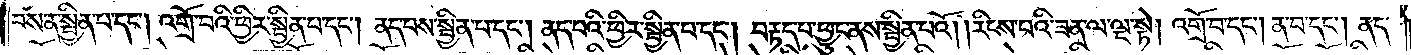བས་ན་སྦྱིན་པ་དང༌། འགྲོ་བའི་ཕྱིར་སྦྱིན་པ་དང༌། ནད་པས་སྦྱིན་པ་དང༌། ནད་པའི་ཕྱིར་སྦྱིན་པ་དང༌། བརྟད་པ་ཕྱུང་ནས་སྦྱིན་པའོ། །རིངས་བའི་ཟན་ལ་ལྔ་སྟེ། འགྲོ་བ་དང༌། ན་བ་དང༌། ནད་
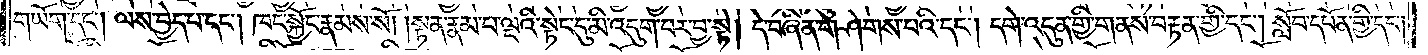གཡོག་དང༌། ལས་བྱེད་པ་དང༌། ཁང་སྐྱོང་རྣམས་སོ། །སྟན་རྣམ་པ་ལྔའི་སྟེང་དུ་མི་འདུག་པར་བྱ་སྟེ། དེ་བཞིན་གཤེགས་པའི་དང༌། དགེ་འདུན་གྱི་གནས་བརྟན་གྱི་དང༌། སློབ་དཔོན་གྱི་དང༌།
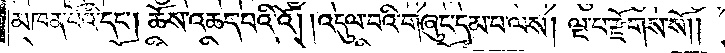མཁན་པོའི་དང༌། ཆོས་འཆད་པའི་འོ། །འདུལ་བའི་གཞུང་དམ་པ་ལས། ལྔ་པ་རྫོགས་སོ༎
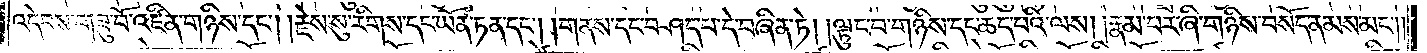འདེབས་གཟུ་བོ་འཛིན་གཉིས་དང༌། །རྗེས་སུ་རིགས་དང་ཡོན་ཏན་དང༌། །གནས་དང་བཤད་པ་དེ་བཞིན་ཏེ། །ལྟུང་བ་གཉིས་དང་ཆད་པའི་ལས། །རྣམ་པར་ཞི་གཉིས་བསོད་ནམས་མང༌༎
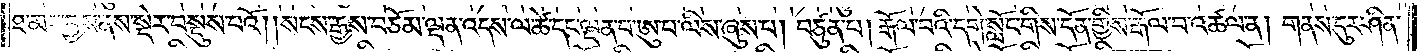ཐ་མར་བྱས་ནས་སྡེར་བསྡུས་པའོ། །སངས་རྒྱས་བཅོམ་ལྡན་འདས་ལ་ཚེ་དང་ལྡན་པ་ཨུ་པ་ལིས་ཞུས་པ། བཙུན་པ། རྒོལ་བའི་དགེ་སློང་གིས་དོན་གྱིས་རྒོལ་བ་འཚལ་ན། གནས་དུར་ཤིན་
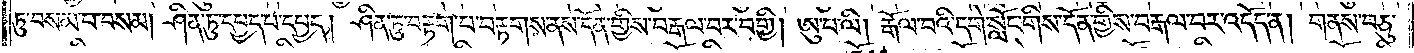ཏུ་བསམ་པ་བསམ། ཤིན་ཏུ་དཔྱད་པ་དཔྱད། ཤིན་ཏུ་བརྟག་པ་བརྟགས་ནས་དོན་གྱིས་བརྒལ་བར་བགྱི། ཨུ་པ་ལི། རྒོལ་བའི་དགེ་སློང་གིས་དོན་གྱིས་བརྒལ་བར་འདོད་ན། གནས་བཅུ་
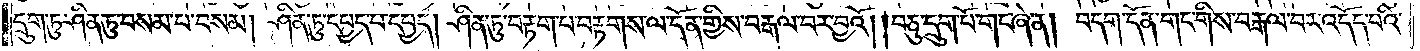དྲུག་ཏུ་ཤིན་ཏུ་བསམ་པ་བསམ། ཤིན་ཏུ་དཔྱད་པ་དཔྱད། ཤིན་ཏུ་བརྟག་པ་བརྟགས་ལ་དོན་གྱིས་བརྒལ་བར་བྱའོ། །བཅུ་དྲུག་པོ་གང་ཞེ་ན། བདག་དོན་གང་གིས་བརྒལ་བར་འདོད་པའི་
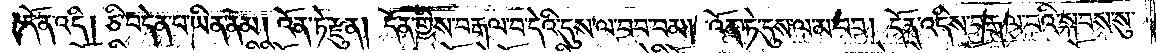དོན་འདི། ཅི་བདེན་པ་ཡིན་ནམ། འོན་ཏེ་རྫུན། དོན་གྱིས་བརྒལ་བ་དེའི་དུས་ལ་བབ་བམ། འོན་ཏེ་དུས་ལ་མ་བབ། དོན་འདིས་བརྒལ་བའི་སྐབས་སུ་
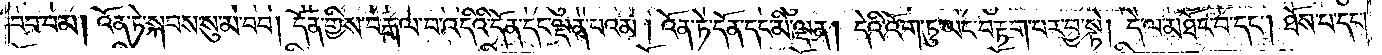བབ་བམ། འོན་ཏེ་སྐབས་སུ་མ་བབ། དོན་གྱིས་བརྒལ་བ་འདིའི་དོན་དང་ལྡན་པའམ། འོན་ཏེ་དོན་དང་མི་ལྡན། དེའི་འོག་ཏུ་ཡང་བརྟག་པར་བྱ་སྟེ། དེ་ལ་མཐོང་བ་དང༌། ཐོས་པ་དང་
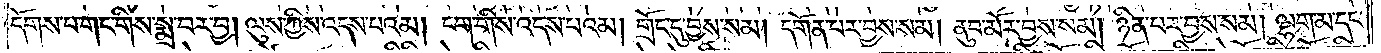དོགས་པ་གང་གིས་སྨྲ་བར་བྱ། ལུས་ཀྱིས་འདས་པའམ། ངག་གིས་འདས་པའམ། གྲོང་དུ་བྱས་སམ། དགོན་པར་བྱས་སམ། ནུབ་མོར་བྱས་སམ། ཉིན་པར་བྱས་སམ། ལྷག་མ་དང་
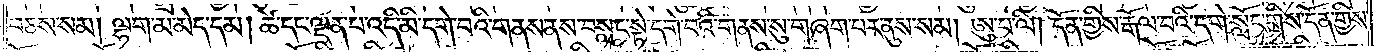བཅས་སམ། ལྷག་མ་མེད་དམ། ཚེ་དང་ལྡན་པ་འདི་མི་དགེ་བའི་གནས་ནས་བསླང་སྟེ་དགེ་བའི་གནས་སུ་གཞག་པར་ནུས་སམ། ཨུ་པ་ལི། དོན་གྱིས་རྒོལ་བའི་དགེ་སློང་གིས་དོན་གྱིས་
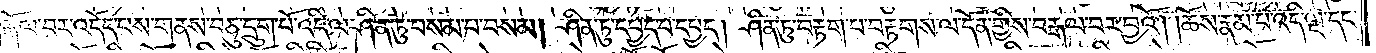རྒོལ་བར་འདོད་པས་གནས་བཅུ་དྲུག་པོ་འདི་ལ་ཤིན་ཏུ་བསམ་པ་བསམ། ཤིན་ཏུ་དཔྱད་པ་དཔྱད། ཤིན་ཏུ་བརྟག་པ་བརྟགས་ལ་དོན་གྱིས་བརྒལ་བར་བྱའོ། །ཆོས་རྣམ་པ་འདི་ལྔ་དང་
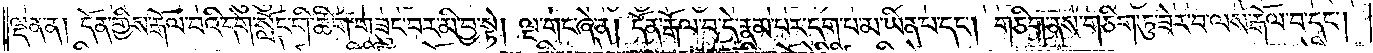ལྡན་ན། དོན་གྱིས་རྒོལ་བའི་དགེ་སློང་གི་ཚིག་གཟུང་བར་མི་བྱ་སྟེ། ལྔ་གང་ཞེ་ན། དོན་རྒོལ་བ་དེ་རྣམ་པར་དག་པ་མ་ཡིན་པ་དང༌། གཅིག་ནས་གཅིག་ཏུ་ཟེར་བ་ལས་རྒོལ་བ་དང༌།
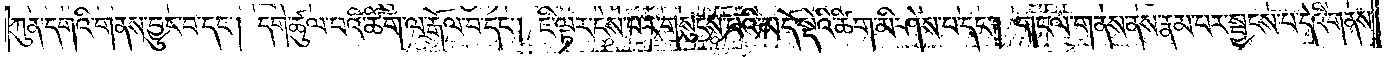ཀུན་དགའི་གནས་བྱུང་བ་དང༌། དགེ་ཚུལ་ཕའི་ཚིག་ལ་རྒོལ་བ་དང༌། ཇི་ལྟར་ངེས་པར་གསུངས་པའི་མདོ་སྡེའི་ཚིག་མི་ཤེས་པ་དང༌། གང་ལ་གནས་ནས་རྣམ་པར་སྦྱངས་པ་དེའི་གནས་
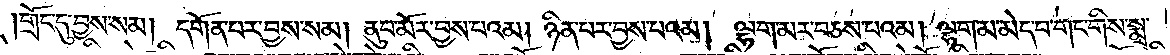གྲོང་དུ་བྱས་སམ། དགོན་པར་བྱས་སམ། ནུབ་མོར་བྱས་པའམ། ཉིན་པར་བྱས་པའམ། ལྷག་མར་བཅས་པའམ། ལྷག་མ་མེད་པ་གང་གིས་སྨྲ་
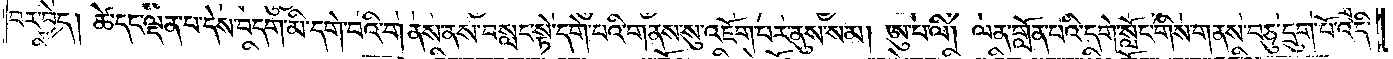བར་བྱེད། ཚེ་དང་ལྡན་པ་དེས་བདག་མི་དགེ་བའི་གནས་ནས་བསླང་སྟེ་དགེ་བའི་གནས་སུ་འཇོག་པར་ནུས་སམ། ཨུ་པ་ལི། ལན་གློན་པའི་དགེ་སློང་གིས་གནས་བཅུ་དྲུག་པོ་འདི་
